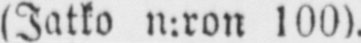(Jatko n:ron 100).
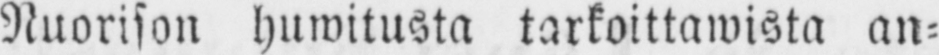Nuorison huwitusta tarkoittawista an-
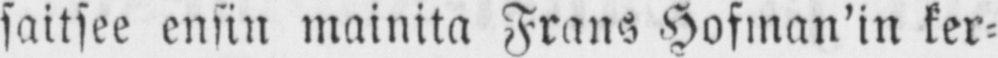saitsee ensin mainita Frans Hofman'in ker-
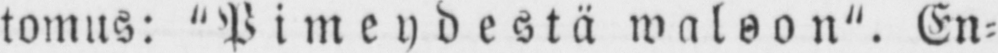tomus: "Pimeydestä waloon". En-
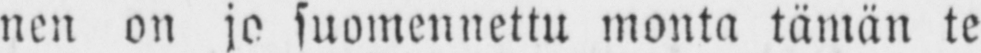nen on jo suomennettu monta tämän te-
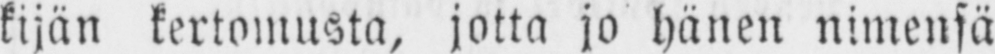kijän kertomusta, jotta jo hänen nimensä
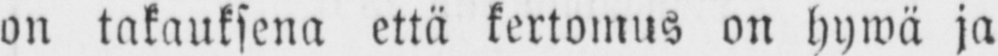on takauksena että kertomus on hywä ja
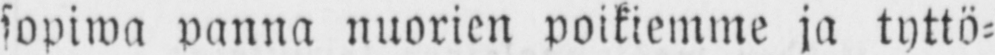sopiwa panna nuorien poikiemme ja tyttö-
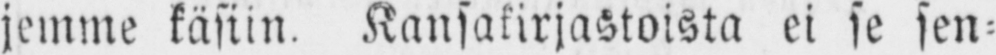jemme käsiin. Kansakirjastoista ei se sen-
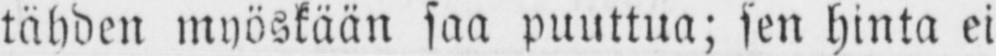tähden myöskään saa puuttua; sen hinta ei
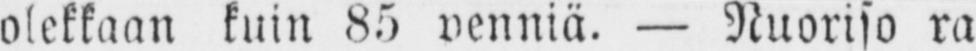olekkaan kuin 85 penniä. — Nuoriso ra-
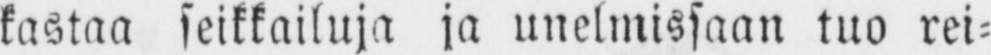kastaa seikkailuja ja unelmissaan tuo rei-
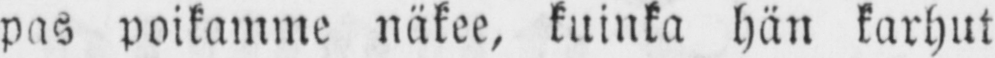pas poikamme näkee, kuinka hän karhut
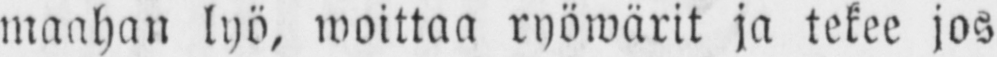maahan lyö, woittaa ryöwärit ja tekee jos
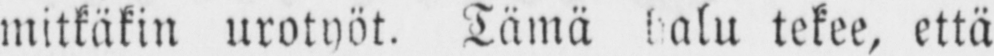mitkäkin urotyöt. Tämä halu tekee, että
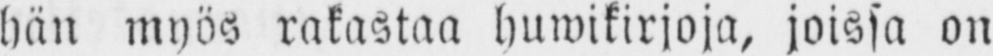hän myös rakastaa huwikirjoja, joissa on
